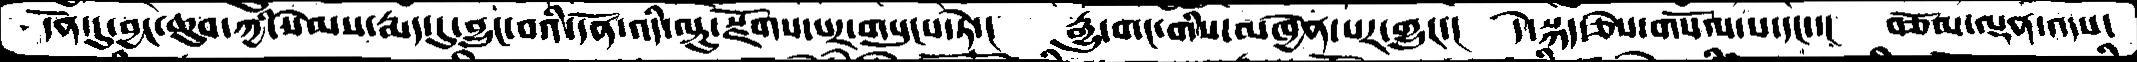དོན་དུ་བྱང་ཆུབ་ཀྱི་སེམས་རྨད་དུ་བྱུང་བའི་དོན་འདི་ལྟུ་སྫོགས་པར་གསུངས་ཏེ་།   རྒྱུ་གང་གིས་མཁྱེན་པར་གྱུར་།    དེ་སྐད་ཅེས་གསོལ་པ་དང་་།  བཅོོམ་ལྡན་འདས་
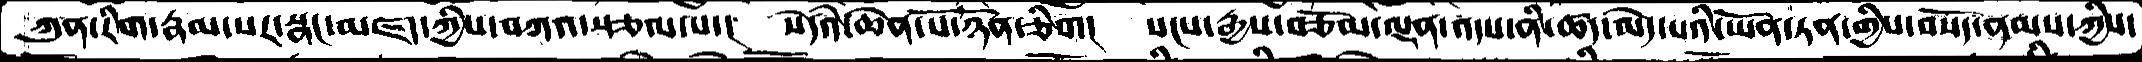ཀུན་རིག་རྣམ་པར་སྣང་མཛད་ཀྱིས་བཀའ་སྩལ་པ་།   སེདའཾ་ཆེན་པོ་ཉོན་ཅིག།   སངས་རྒྱས་བཅོམ་ལྡན་འདས་ནི་ཚད་མེད་པའི་ཡོན་ཏན་གྱིས་བསོད་ནམས་ཀྱིས་
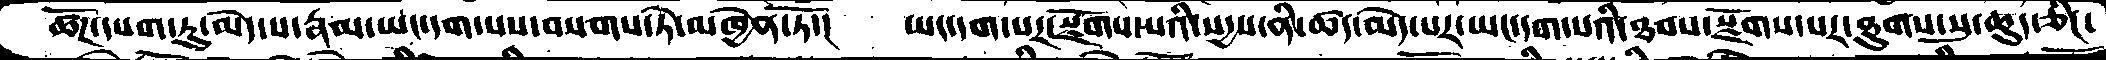ཚོཌ་དཔག་ཏུ་མེད་པ་རྣམ་ཡང་དག་པས་བསགས་ཏེ་མཁྱེན་ཏོ་།    ཡང་དག་པར་སྫོགས་པའི་སདྱས་ནི་ཚད་མེད་པར་ཡང་དག་པའིཐབས་སྫོགས་པར་ཐུགས་སུ་ཆུད་ཅིང་
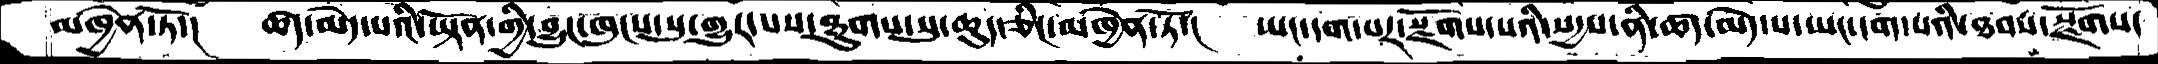མཁྱེན་ཏོ་།   ཚད་མེད་པའི་ཡྟོན་གྱི་བྱུང་ཁུངས་སུ་གྱུར་པས་ཐུགས་སུ་ཆུད་ཅིང་མཁྱེན་ཏོ་།   ཡང་དག་པར་སྫོགས་པའི་སདྱས་ནི་ཚད་མེད་པ་ཡང་དག་པའི་ཐབས་སྫོགས་
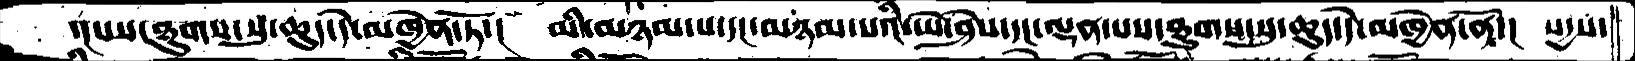་།པས་ཐུགས་སུ་ཆུད་དེ་མཁྱེན་ཏོ་།   མི་མཉམ་པ་དང་མཉམ་པའི་ཡེ་ཤེས་དང་ལྡན་པས་ཐུགས་སུ་ཆུད་དེ་མཁྱེན་ནོ་།  སདྱས་
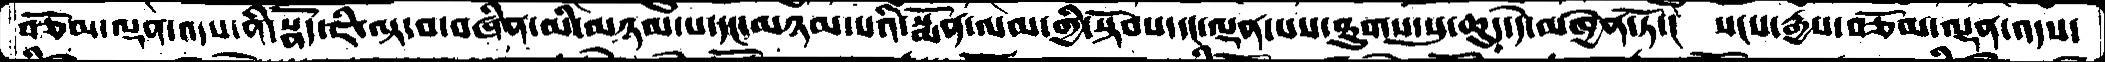བཅོམ་ལྡན་འདས་ནི་སྣོད་ཇི་ལྟ་བ་བཞིན་མི་མཉམ་པ་དང་མཉམ་པའི་སྨོན་ལམ་གྱི་སྟོབས་དང་ལྡན་པས་ཐུགས་སུ་ཆུད་དེ་མཁྱེན་ཏོ་།   སངས་རྒྱས་བཅོམ་ལྡན་འདས་
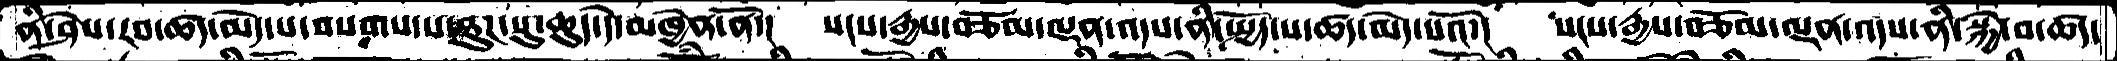ནི་ཤེས་རབ་ཚད་མེད་པ་བསགས་པ་ཐུཌ་སུ་ཆུད་དེ་མཁྱེན་ནོ་།  སངས་རྒྱས་བཅོམ་ལྡན་འདས་ནི་སྤྱོད་པ་ཚད་མེད་པའོ་།   སངས་རྒྱས་བཅོམ་ལྡན་འདས་ནི་སྐྱེ་བ་ཚད་
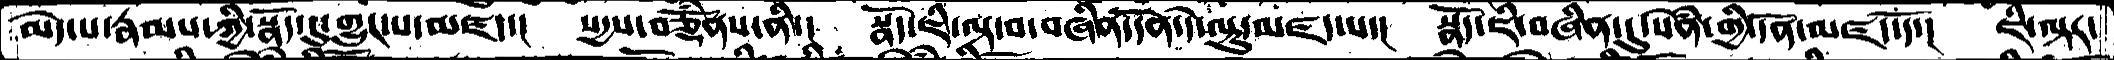མེད་པ་རྣམས་ཀྱི་སྣོད་དུ་གྱུར་པ་མཛད་།   སདྱས་བཅྡོཾནས་ནི་།  སྣོད་ཇི་ལྟ་བ་བཞིན་དོན་དེ་ལྟུ་མཛད་པ་།  སྣོད་ཇི་བཞིན་དུ་སེཾན་གྱི་དོན་མཛད་དོ་།  ཇི་ལྟར་
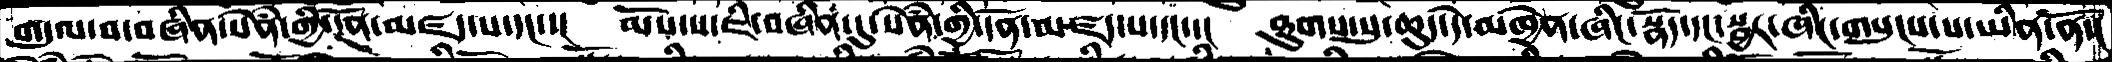གདུལ་བ་བཞིན་སེཾན་གྱི་དོན་མཛད་པ་དང་་།   མོས་པ་ཇི་བཞིན་དུ་སེཾན་གྱི་དོན་མཛད་པ་དང་་།   ཐུགས་སུ་ཆུད་དེ་མཁྱེན་ཞིང་སྣོད་དང་སྦྱར་ཞིང་གསུངས་པ་ཡིན་ནོ་།
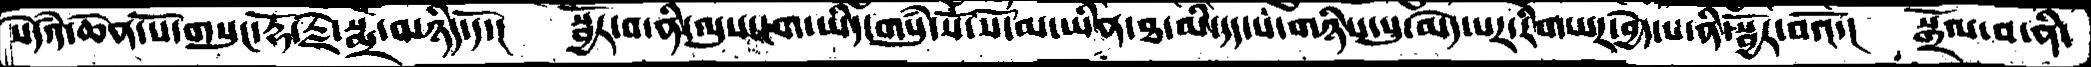སེདའཾ་ཆེན་པོ་གསུང་རྡོ་རྗེ་སྨྲ་བ་ཉིད་དོ་།  སྦྱོར་བ་ནི་ལུས་ངག་ཡིད་གསུཾ་སོ་སོ་མ་ཡིན་ཐ་མི་དད་པ་གཉིས་སུ་མེད་པར་རིག་པར་བྱེད་པ་ནི་སྦྱོར་བའོ་།  སྒྲོལ་བ་ནི་
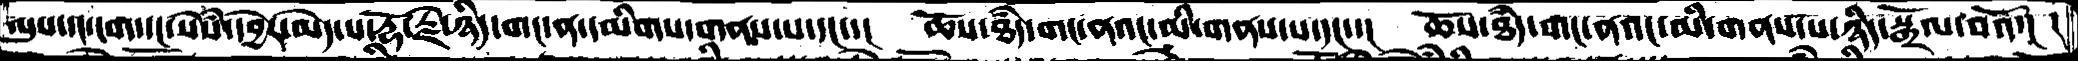ལུས་དང་ངག་དང་སེསཾ་དབྱེར་མེད་པ་རྡོ་རྗེ་ཉིད་གང་ན་དམིགས་གནས་པ་དང་།  ཆོས་ཐཾད་གང་ནའང་མི་གནས་པ་དང་།  ཆོས་ཐཾད་གང་ནའང་མི་གནས་པ་ཉིད་སྒྲོལ་བའོ་། །
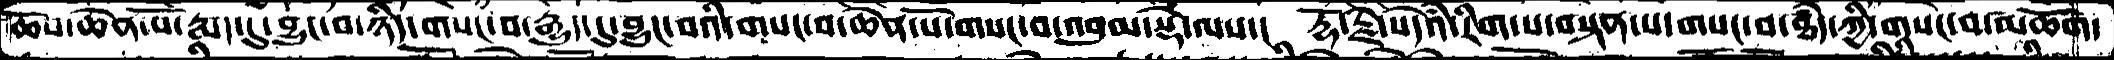ཆོས་ཆེན་པོ་རྨ་་དུ་བྱུང་བ་ཉིད་གསང་བ་རྒྱུད་དུ་བྱུང་བའི་གསང་བ་ཆེན་པོ་གསང་བ་འབུམ་སྡེ་ལས་།  རྡོ་རྗེ་སེདའཾ་རིག་པ་བསྟན་པ་གསང་བ་ཐཾད་ཀྱི་གསང་བ་མཆོག་
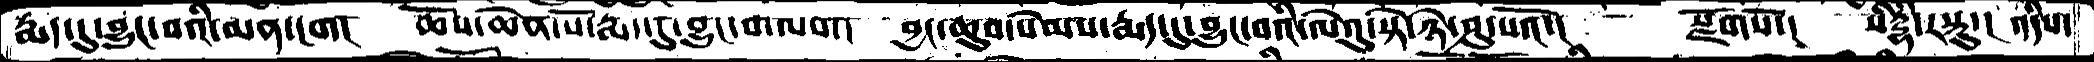རྨད་དུ་བྱུང་བའི་མན་ངག།  ཆོས་ཆེན་པོ་རྨད་དུ་བྱུང་པ་ལས་།  བྱང་ཆུབ་སེམས་རྨད་དུ་བྱུང་བའི་ལེའུ་སྟེ་ཉེ་ཤུ་པའོ་།  སྫོགསོ་།  སིརྡྷི་རསྟུ་།  འདིས་
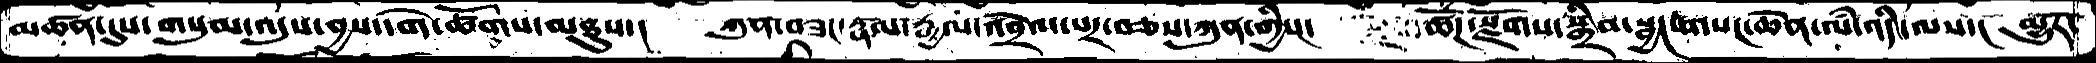མཚན་དུས་གསུམ་འདུས་བྱས་དགེ་ཚོོགས་མཐུས་།  ཀུན་བཟང་རྣམ་རྒྱལ་འབྲེལ་པར་བཅས་ཀུན་གྱིས་།  ཚོཌ་སྫོགས་སྒྲིབ་སྦྱང་གསང་ཆེན་ལཾ་འདི་ལས་།  མྱུར་
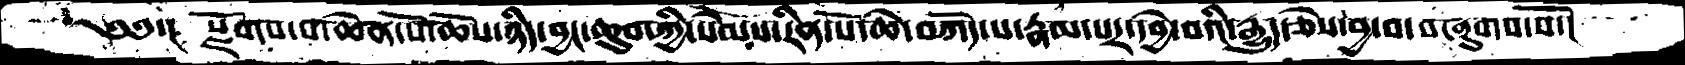༄༅་།  སྫོགས་པ་ཆེན་པོ་ཆོས་་ཉིད་བྱང་ཆུབ་ཀྱི་སེམས་རིན་པོ་ཆེ་བཀོད་པ་རྣམ་པར་དབྱེ་བའི་རྒྱུད་ཅེས་བྱ་བ་བཞུགས་སོ་།
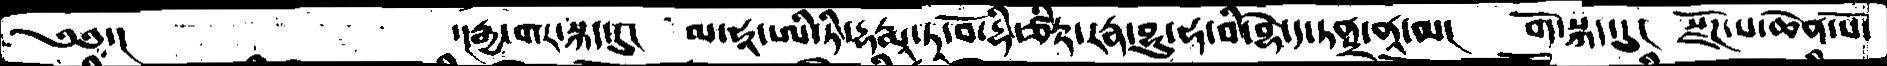༄༅་།      ་།རྒྱ་གར་སྐད་དུ།  མ་ཧཱ་ཨི་ཏི་ཌྷརྨཱ་ཏཱ་བོ་ཌྷི་ཙིཏྟ་རཏྣ་བྷུ་ཧ་བི་བྷེ་ད་ཏནྟྲ་ནཱ་མ།  བོད་སྐད་དུ།  སྫོཌ་པ་ཆེན་པོ་
